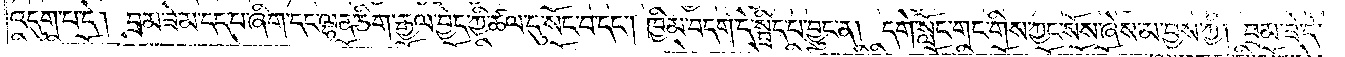འདུག་པ་དེ། བྲམ་ཟེ་མ་དད་པ་ཞིག་དང་ལྷན་ཅིག་རྒྱལ་བྱེད་ཀྱི་ཚལ་དུ་སོང་བ་དང༌། ཁྱིམ་བདག་དེ་སྦྲིད་པ་བྱུང་ན། དགེ་སློང་གང་གིས་ཀྱང་སོས་ཞེས་མ་བྱས་ཀྱི། བྲམ་ཟེ་དེ་
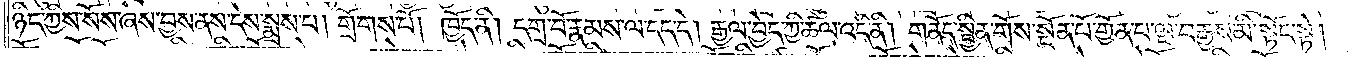ཉིད་ཀྱིས་སོས་ཞེས་བྱས་ནས་དེས་སྨྲས་པ། གྲོགས་པོ། ཁྱོད་ནི། དགྲ་བོ་རྣམས་ལ་དད་དེ། རྒྱལ་བྱེད་ཀྱི་ཚལ་འདི་ནི། གནོད་སྦྱིན་གོས་སྔོན་པོ་གྱོན་པ་ལྔ་བརྒྱས་མི་སྟོང་སྟེ།
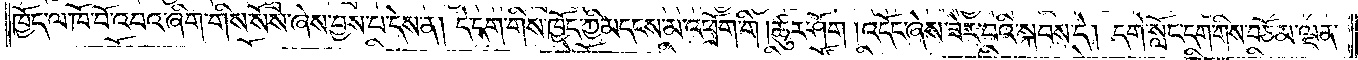ཁྱོད་ལ་ཁོ་བོ་འབའ་ཞིག་གིས་སོས་ཞེས་བྱས་པ་དེས་ན། དེ་དག་གིས་ཁྱོད་ཀྱི་མདངས་མ་འཕྲོག་གི །ཚུར་ཤོག །འདོང་ཞེས་ཟེར་བའི་སྐབས་དེ། དགེ་སློང་དག་གིས་བཅོམ་ལྡན་
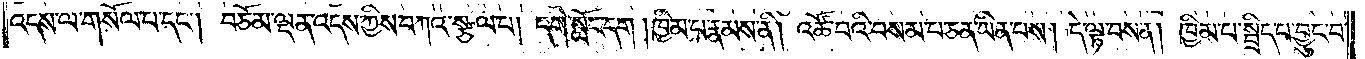འདས་ལ་གསོལ་པ་དང༌། བཅོམ་ལྡན་འདས་ཀྱིས་བཀའ་སྩལ་པ། དགེ་སློང་དག །ཁྱིམ་པ་རྣམས་ནི། འཚོ་བའི་བསམ་པ་ཅན་ཡིན་པས། དེ་ལྟ་བས་ན། ཁྱིམ་པ་སྦྲིད་པ་བྱུང་བ་
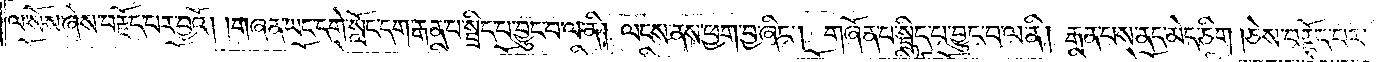ལ་སོས་ཞེས་བརྗོད་པར་བྱའོ། །གཞན་ཡང་དགེ་སློང་དག་རྒན་པ་སྦྲིད་པ་བྱུང་བ་ལ་ནི། ལངས་ནས་ཕྱག་བྱ་ཞིང༌། གཞོན་པ་སྤྲིད་པ་བྱུང་བ་ལ་ནི། རྒན་པས་ནད་མེད་ཅིག །ཅེས་བརྗོད་པར་
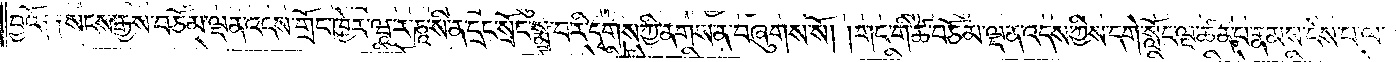བྱའོ༑་༑སངས་རྒྱས་བཅོམ་ལྡན་འདས་གྲོང་ཁྱེར་ཝཱ་ར་ཎཱ་སི་ན་དྲང་སྲོང་སྨྲ་བ་རི་དྭགས་ཀྱི་ནགས་ན་བཞུགས་སོ། །གང་གི་ཚེ་བཅོམ་ལྡན་འདས་ཀྱིས་དགེ་སློང་ལྔ་ཚན་པ་རྣམས་ངེས་པ་ལ་
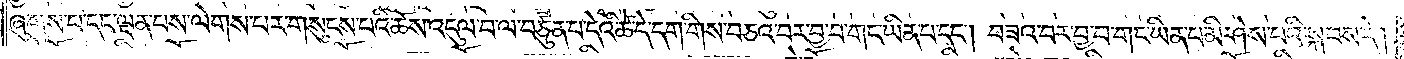ཞུགས་པ་དང་ལྡན་པས་ལེགས་པར་གསུངས་པའི་ཆོས་འདུལ་བ་ལ་བཙུན་པ་དེའི་ཚེ་དེ་དག་གིས་བཅའ་བར་བྱ་བ་གང་ཡིན་པ་དང༌། བཟའ་བར་བྱ་བ་གང་ཡིན་པ་མི་ཤེས་པའི་སྐབས་དེ།
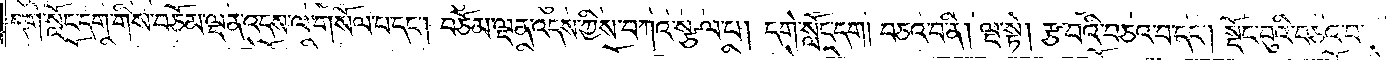དགེ་སློང་དག་གིས་བཅོམ་ལྡན་འདས་ལ་གསོལ་པ་དང༌། བཅོམ་ལྡན་འདས་ཀྱིས་བཀའ་སྩལ་པ། དགེ་སློང་དག །བཅའ་བ་ནི། ལྔ་སྟེ། རྩ་བའི་བཅའ་བ་དང༌། སྡོང་བུའི་བཅའ་བ་
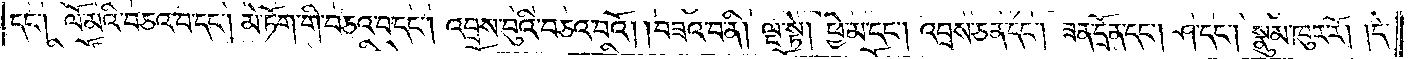དང༌། ལོ་མའི་བཅའ་བ་དང༌། མེ་ཏོག་གི་བཅའ་བ་དང༌། འབྲས་བུའི་བཅའ་བའོ། །བཟའ་བ་ནི། ལྔ་སྟེ། ཕྱེ་མ་དང༌། འབྲས་ཅན་དང༌། ཟན་དྲོན་དང༌། ཤ་དང༌། སྣུམ་ཁུར་རོ། །དེ་
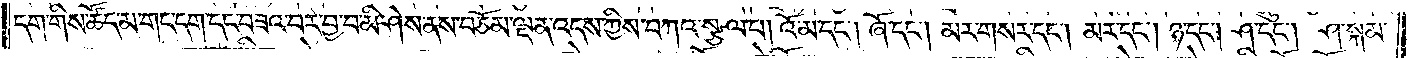དག་གིས་ཚོད་མ་གང་དག་དང་བཟའ་བར་བྱ་བ་མི་ཤེས་ནས་བཅོམ་ལྡན་འདས་ཀྱིས་བཀའ་སྩལ་པ། འོ་མ་དང༌། ཞོ་དང༌། མར་གསར་དང༌། མར་དང༌། ཉ་དང༌། ཤ་དང༌། ཤ་སྐམ་
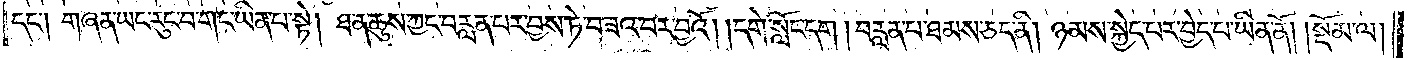དང༌། གཞན་ཡང་རུང་བ་གང་ཡིན་པ་སྟེ། ཐ་ན་ཆུས་ཀྱང་བརླན་པར་བྱས་ཏེ་བཟའ་བར་བྱའོ། །དགེ་སློང་དག །བརླན་པ་ཐམས་ཅད་ནི། ཉམས་སྐྱེད་པར་བྱེད་པ་ཡིན་ནོ།    །སྡོམ་ལ།
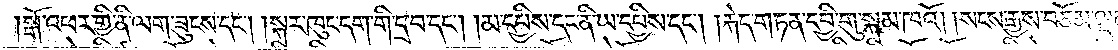།སྒོ་འཕར་གྱི་ནི་ལག་ཟུངས་དང༌། །སྐར་ཁུང་དག་གི་དྲ་བ་དང༌། །མ་དཔྱིས་དང་ནི་ཡ་དཔྱིས་དང༌། །རྐེད་གཏན་དབྱི་གུ་སྐམ་ཁའོ། །སངས་རྒྱས་བཅོམ་ལྡ
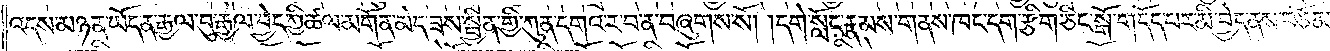འདས་མཉན་ཡོད་ན་རྒྱལ་བུ་རྒྱལ་བྱེད་ཀྱི་ཚལ་མགོན་མེད་ཟས་སྦྱིན་གྱི་ཀུན་དགའ་ར་བ་ན་བཞུགས་སོ། །དགེ་སློང་རྣམས་གནས་ཁང་དག་རྩིག་ཅིང་སྒོ་གདོད་པར་མི་བྱེད་ནས་བཅོམ་
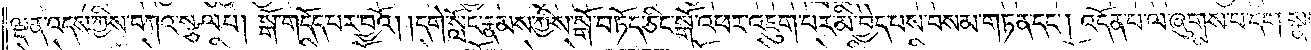ལྡན་འདས་ཀྱིས་བཀའ་སྩལ་པ། སྒོ་གདོད་པར་བྱའོ། །དགེ་སློང་རྣམས་ཀྱིས་སྒོ་བཏོད་ཅིང་སྒོ་འཕར་འཇུག་པར་མི་བྱེད་པས་བསམ་གཏན་དང༌། འདོན་པ་ལ་ཞུགས་པ་དག་སྣང་
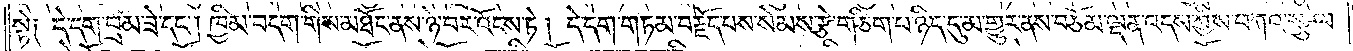སྟེ༑ དེ་དག་བྲམ་ཟེ་དང༌། ཁྱིམ་བདག་གིས་མཐོང་ནས་ཉེ་བར་འོངས་ཏེ། དེ་དག་གཏམ་བརྗོད་པས་སེམས་རྩེ་གཅིག་པ་ཉིད་དུ་མ་གྱུར་ནས་བཅོམ་ལྡན་འདས་ཀྱིས་བཀའ་སྩལ་
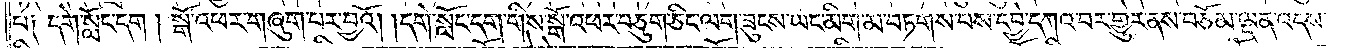པ༑ དགེ་སློང་དག །སྒོ་འཕར་གཞུག་པར་བྱའོ། །དགེ་སློང་དག་གིས་སྒོ་འཕར་བཅུག་ཅིང་ལག་ཟུངས་ཡང་མིག་མ་བཏགས་པས་དབྱེ་དཀའ་བར་གྱུར་ནས་བཅོམ་ལྡན་འདས་
